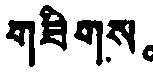གཟིགས。
